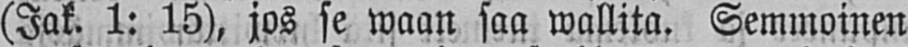(Jak. 1: 15), jos se waan saa wallita. Semmoinen
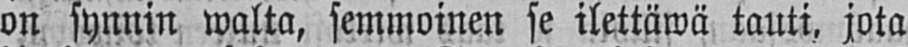on synnin walta, semmoinen se ilettäwä tauti, jota
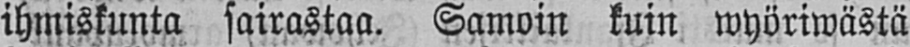ihmiskunta sairastaa. Samoin kuin wyöriwästä
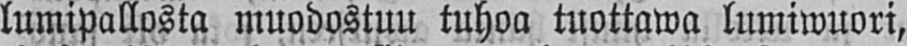lumipallosta muodostuu tuhoa tuottawa lumiwuori,
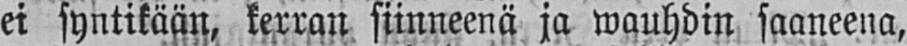ei syntikään, kerran siinneenä ja wauhdin saaneena,
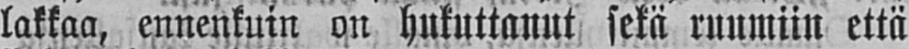lakkaa, ennenkuin on hukuttanut sekä ruumiin että
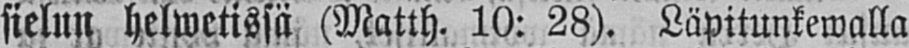sielun helwetissä (Matth. 10: 28). Läpitunkewalla
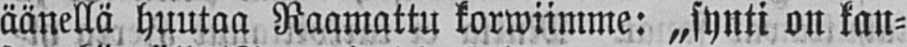äänellä huutaa Raamattu korwiimme: „synti on kan-
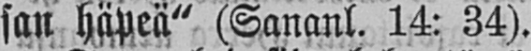san häpeä" (Sananl. 14: 34).
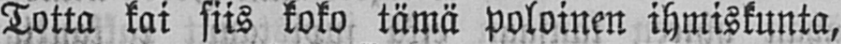Totta kai siis koko tämä poloinen ihmiskunta,
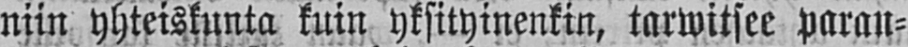niin yhteiskunta kuin yksityinenkin, tarwitsee paran-
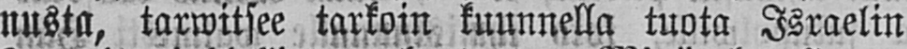nusta, tarwitsee tarkoin kuunnella tuota Israelin
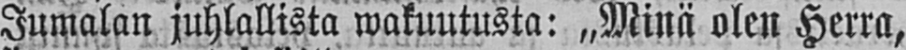Jumalan juhlallista wakuutusta: „Minä olen Herra,
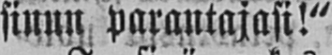sinun parantajasi!"
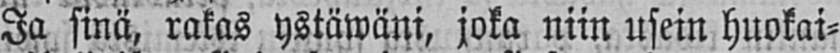Ja sinä, rakas ystäwäni, joka niin usein huokai-
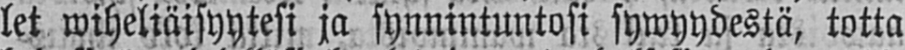let wiheliäisyytesi ja synnintuntosi sywyydestä, totta
